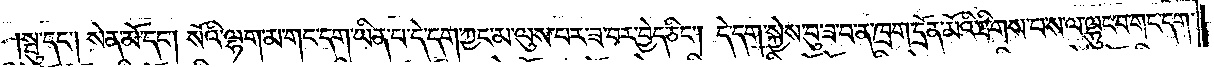སྦུ་དང༌། སེན་མོ་དང༌། སོའི་ལྷག་མ་གང་དག་ཡིན་པ་དེ་དག་ཀྱང་མ་ལུས་པར་ཟ་བར་བྱེད་ཅིང༌། དེ་དག་སྐྱེས་བུ་ཟ་བ་ན་ཁྲག་དྲོན་མོའི་ཐིགས་པ་ས་ལ་ལྷུང་བ་གང་དག་
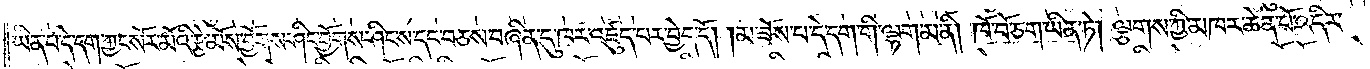ཡིན་པ་དེ་དག་ཀྱང་སོར་མོའི་རྩེ་མོས་བྱོགས་ཤིང་བྱོགས་ཤིང་དང་བཅས་བཞིན་དུ་ཁར་འཛུད་པར་བྱེད་དོ། །མ་ཟོས་པ་དེ་དག་གི་ལྷག་མ་ནི། ཁོ་བོ་ཅག་ཡིན་ཏེ། ལྕགས་ཀྱི་མཁར་ཆེན་པོ་འདིར་
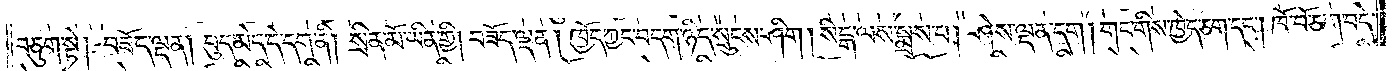བཅུག་སྟེ། བཟོད་ལྡན། བུད་མེད་དེ་དག་ནི། སྲིན་མོ་ཡིན་གྱི། བཟོད་ལྡན། ཁྱོད་ཀྱང་བདག་ཉིད་སྲུངས་ཤིག། སིངྒ་ལས་སྨྲས་པ། ཤེས་ལྡན་དག། གང་གིས་ཁྱེད་ཅག་དང༌། ཁོ་བོ་ཅག་བདེ་
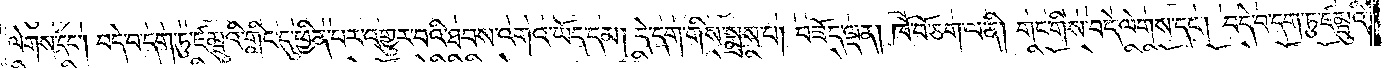ལེགས་དང༌། བདེ་བ་དག་ཏུ་ཛམྦུའི་གླིང་དུ་ཕྱིན་པར་འགྱུར་བའི་ཐབས་འགའ་ཡོད་དམ། དེ་དག་གིས་སྨྲས་པ། བཟོད་ལྡན། ཁོ་བོ་ཅག་ལ་ནི། གང་གིས་བདེ་ལེགས་དང༌། བདེ་བ་དག་ཏུ་ཛམྦུའི་
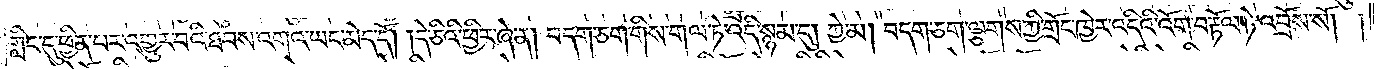གླིང་དུ་ཕྱིན་པར་འགྱུར་བའི་ཐབས་འགའ་ཡང་མེད་དོ། །དེ་ཅིའི་ཕྱིར་ཞེ་ན། བདག་ཅག་གིས་གལ་ཏེ་འདི་སྙམ་དུ། ཀྱེ་མ། བདག་ཅག་ལྕགས་ཀྱི་གྲོང་ཁྱེར་འདིའི་འོག་བརྟོལ་ཏེ་འབྲོས་སོ། །
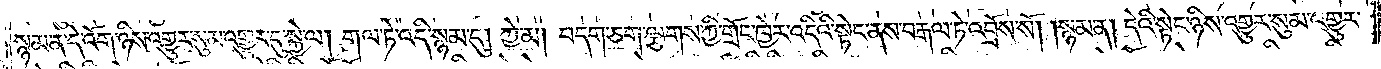སྙམ་ན་དེ་འོག་ཉིས་འགྱུར་སུམ་འགྱུར་དུ་སྐྱེ་ལ། གལ་ཏེ་འདི་སྙམ་དུ། ཀྱེ་མ། བདག་ཅག་ལྕགས་ཀྱི་གྲོང་ཁྱེར་འདིའི་སྟེང་ནས་བརྒལ་ཏེ་འབྲོས་སོ། །སྙམ་ནས། དེའི་སྟེང་ཉིས་འགྱུར་སུམ་འགྱུར་
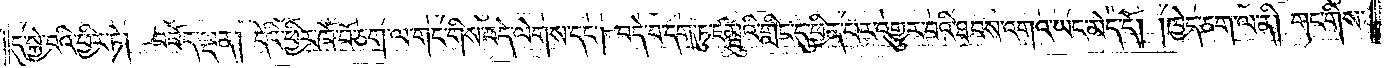དུ་སྐྱེ་བའི་ཕྱིར་ཏེ། བཟོད་ལྡན། དེའི་ཕྱིར་ཁོ་བོ་ཅག་ལ་གང་གིས་བདེ་ལེགས་དང༌། བདེ་བ་དག་ཏུ་ཛམྦུའི་གླིང་དུ་ཕྱིན་པར་འགྱུར་བའི་ཐབས་འགའ་ཡང་མེད་དོ། །ཁྱེད་ཅག་ལ་ནི། གང་གིས་
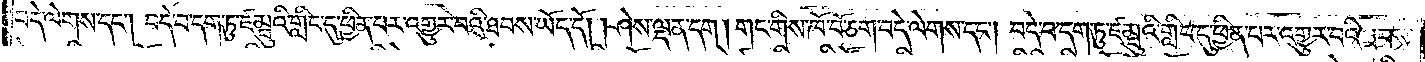བདེ་ལེགས་དང༌། བདེ་བ་དག་ཏུ་ཛམྦུའི་གླིང་དུ་ཕྱིན་པར་འགྱུར་བའི་ཐབས་ཡོད་དོ། །ཤེས་ལྡན་དག། གང་གིས་ཁོ་བོ་ཅག་བདེ་ལེགས་དང༌། བདེ་བ་དག་ཏུ་ཛམྦུའི་གླིང་དུ་ཕྱིན་པར་འགྱུར་བའི་ཐབས་
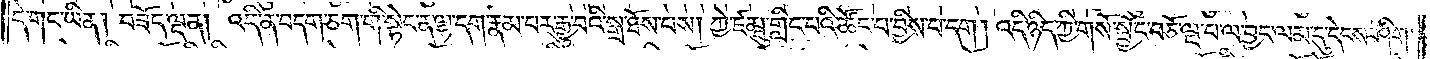དེ་གང་ཡིན། བཟོད་ལྡན། འདི་ན་བདག་ཅག་གི་སྟེང་ན་ལྷ་དག་རྣམ་པར་རྒྱུ་བའི་སྒྲ་ཐོས་པས། ཀྱེ་ཛམྦུ་གླིང་པའི་ཚོང་པ་བྱིས་པ་དང༌། འདི་ཉིད་ཀྱི་གསོ་སྦྱོང་བཅོ་ལྔ་པ་ལ་བྱང་ལམ་དུ་དེངས་ཤིག་
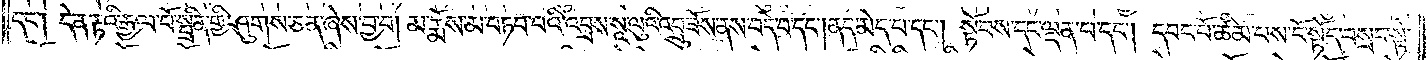དང༌། དེ་ན་རྟའི་རྒྱལ་པོ་སྤྲིན་གྱི་ཤུགས་ཅན་ཞེས་བྱ་བ། མ་རྨོས་མ་བཏབ་པའི་འབྲས་སཱ་ལུའི་འབྲུ་ཟོས་ནས་བདེ་བ་དང༌། ནད་མེད་པ་དང༌། སྟོབས་དང་ལྡན་པ་དང༌། དབང་པོ་ཚིམ་པས་ངོ་སྟོད་བསྲང་སྟེ་
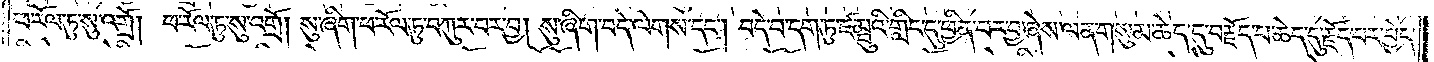ཕ་རོལ་ཏུ་སུ་འགྲོ། ཕ་རོལ་ཏུ་སུ་འགྲོ། སུ་ཞིག་ཕ་རོལ་ཏུ་བཀུར་བར་བྱ། སུ་ཞིག་བདེ་ལེགས་དང༌། བདེ་བ་དག་ཏུ་ཛམྦུའི་གླིང་དུ་ཕྱིན་པར་བྱ་ཞེས་ལན་གསུམ་ཆེད་དུ་བརྗོད་པ་ཆེད་དུ་རྗོད་པར་བྱེད་
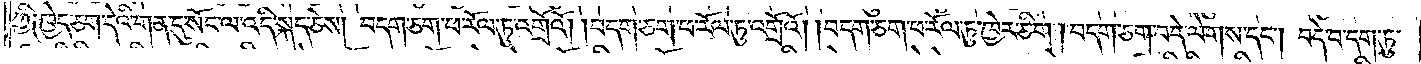ཀྱི༑ ཁྱེད་ཅག་དེའི་གན་དུ་སོང་ལ་འདི་སྐད་ཅེས། བདག་ཅག་ཕ་རོལ་ཏུ་འགྲོའོ། །བདག་ཅག་ཕ་རོལ་ཏུ་འགྲོའོ། །བདག་ཅག་ཕ་རོལ་ཏུ་ཁྱེར་ཅིག །བདག་ཅག་བདེ་ལེགས་དང༌། བདེ་བ་དག་ཏུ་
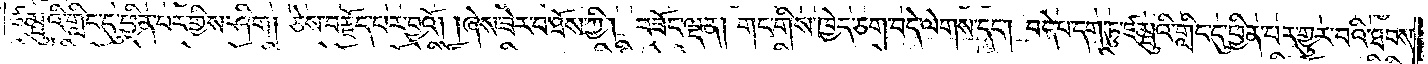ཛམྦུའི་གླིང་དུ་ཕྱིན་པར་གྱིས་ཤིག། ཅེས་བརྗོད་པར་བྱའོ། །ཞེས་ཟེར་བ་ཐོས་ཀྱི། བཟོད་ལྡན། གང་གིས་ཁྱེད་ཅག་བདེ་ལེགས་དང༌། བདེ་བ་དག་ཏུ་ཛམྦུའི་གླིང་དུ་ཕྱིན་པར་གྱུར་པའི་ཐབས་
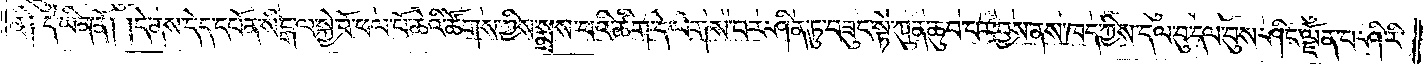ནི༑ དེ་ཡིན་ནོ། །དེ་ནས་དེད་དཔོན་སིངྒ་ལ་སྐྱེ་བོ་ཕལ་པོ་ཆེའི་ཚོགས་ཀྱིས་སྨྲས་པའི་ཚིག་དེ་ལེགས་པར་ཤིན་ཏུ་བཟུང་སྟེ་ཀུན་ཆུབ་པར་བྱས་ནས་ཁད་ཀྱིས་དལ་བུ་དལ་བུས་ཤིང་ལྗོན་པ་ཤི་རི་
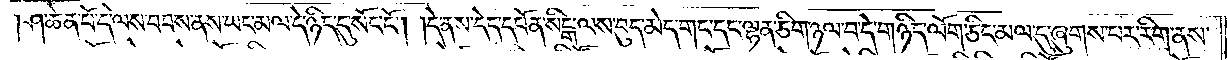ཤ་ཆེན་པོ་དེ་ལས་བབས་ནས་ཡང་མལ་དེ་ཉིད་དུ་སོང་ངོ༌། །དེ་ནས་དེད་དཔོན་སིངྒ་ལས་བུད་མེད་གང་དང་ལྷན་ཅིག་ཉལ་བ་དེ་གཉིད་ལོག་ཅིང་མལ་དུ་ཞུགས་པར་རིག་ནས་
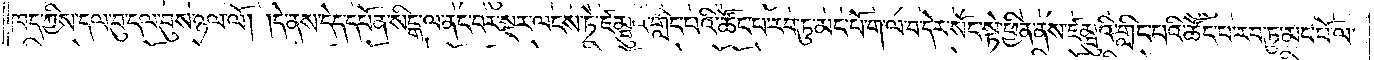ཁད་ཀྱིས་དལ་བུ་དལ་བུས་ཉལ་ལོ། །དེ་ནས་དེད་དཔོན་སིངྒ་ལ་ནང་པར་སྔར་ལངས་ཏེ་ཛམྦུའི་གླིང་པའི་ཚོང་པ་རབ་ཏུ་མང་པོ་ག་ལ་བ་དེར་སོང་སྟེ་ཕྱིན་ནས་ཛམྦུའི་གླིང་པའི་ཚོང་པ་རབ་ཏུ་མང་པོ་ལ་
